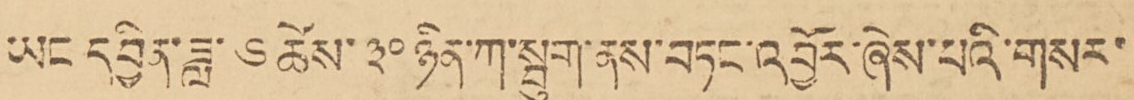ཡང དབྱིན་ཟླ་ ༦ ཚེས་ ༣༠ ཉིན་ཀ་སྦུག་ནས་བཏང་འབྱོར་ཞེས་པའི་གསར་
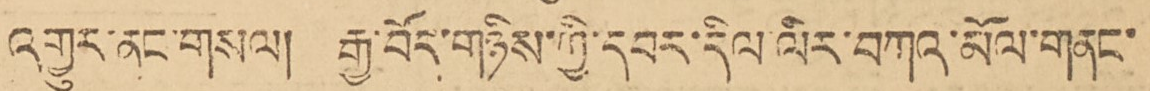འགྱུར་ནང་གསལ། རྒྱ་བོད་གཉིས་ཀྱི་དབར་དིལ་ལིར་བཀའ་མོལ་གནང་
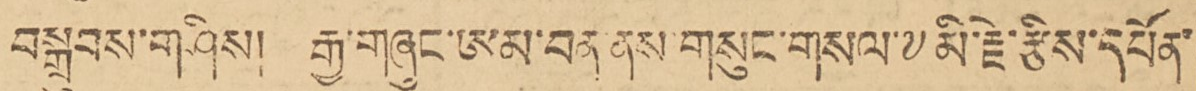བསྒུབས་ནང་གསལ། རྒྱ་བོད་གཉིས་ཀྱི་དབར་དིལ ལིར་བཀའ་མོལ་གནང་
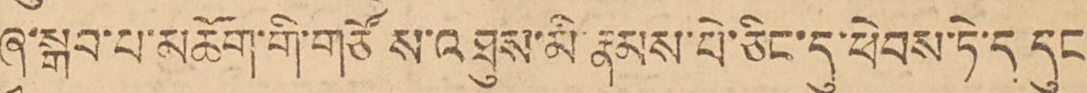ཞྭ་སྒབ་པ་མཆོག་གི་གཙོ ས་འཐུས་མི་རྣམས་པེ་ཅིང་དུ་ཕེབས་ཏེ་ད དུང་
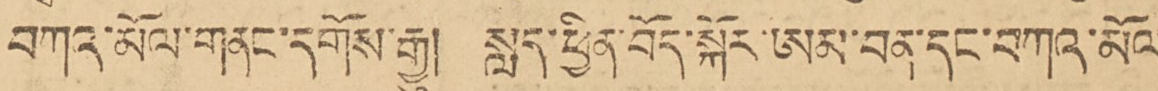བཀའ་མོལ་གནང་དགོས་རྒྱུ། སླད་ཕྱིན་བོད་སྐོར་ཨམ་བན་དང་བཀའ་མོལ་
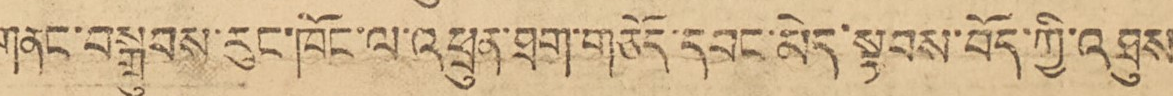གནང་བསྒྲུབས་རུང་ཁོང་ལ་འཕྲུན་ཐག་གཅོད་དབང་མེད་སྟབས་བོད་ཀྱི་འཐུས་
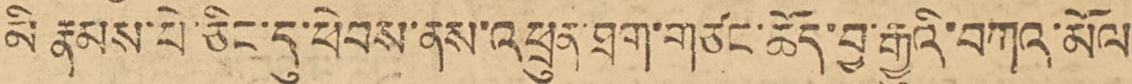མི་རྣམས་པེ་ཅིང་དུ་ཕེབས་ནས་འཕྲུལ་ཐག་གཙང་ཆོད་བྱ་རྒྱུའི་བཀའ་མོལ་
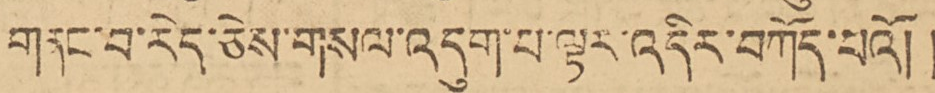གནང་བ་རེད་ཅེས་གསལ་འདུག་པ་ལྟར་འདིར་བཀོད་པའོ། །
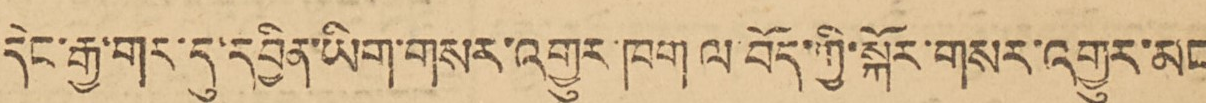དེང་རྒྱ་གར་དུ་དབྱིན་ཡིག་གསར་འགྱུར་ཁག ལ་བོད་ཀྱི་སྐོར་གསར་འགྱུར་མང་
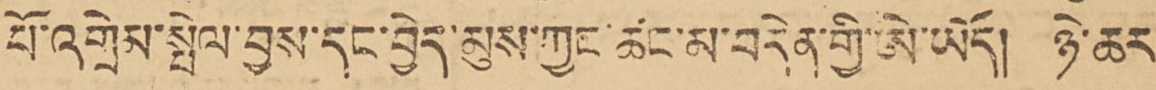པོ་འགྲེམ་སྤེལ་བྱས་དང་བྱེད་མུས་ཀྱང་ཚང་མ་བདེན་གྱི་ཨེ་ཡོད། ཉེ་ཆར་
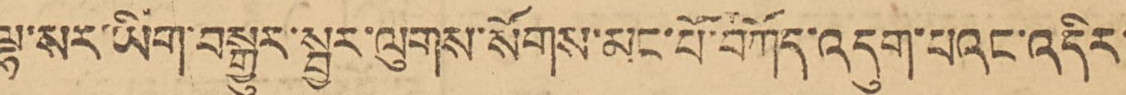ལྷ་སར་ཡིག་བསྒྱུར་སྦྱར་ལུགས་སོགས་མང་པོ་བཀོད་འདུག་པའང་འདིར་
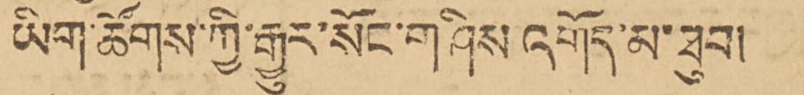ཡིག་ཚོགས་ཀྱི་རྒྱུར་སོང་གཤིས་འགོད་མ་ཐུབ། །
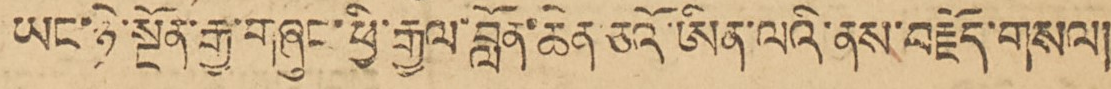ཡང་ཉེ་སྔོན་རྒྱ་གཞུང་ཕྱི་རྒྱལ་བློན་ཆེན་ཅའོ་ཨིན་ལའི་ནས་བརྗོད་གསལ།
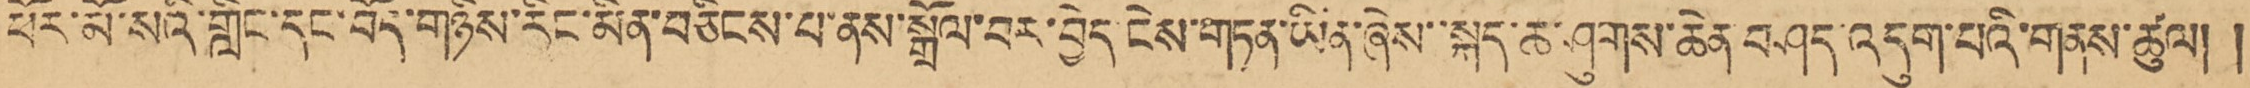ཕོར་མོ་སའི་གླིང་དང་བོད་གཉིས་རིང་མིན་བཅིངས་པ་ནས་སྒྲོལ་བར་བྱེད་ངེས་གཏན་ཡིན་ཞེས་་སྐད་ཆ་ཤུགས་ཆེན བཤད་འདུག་པའི་གནས་ཚུལ། །
